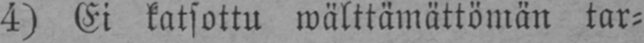4) Ei katsottu wälttämättömän tar-
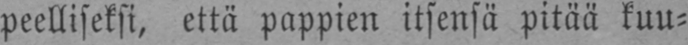peelliseksi, että pappien itsensä pitää kuu-
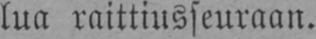lua raittiusseuraan.
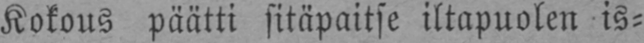Kokous päätti sitäpaitse iltapuolen is-
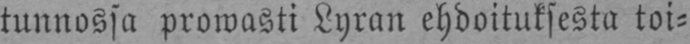tunnossa prowasti Lyran ehdotuksesta toi-
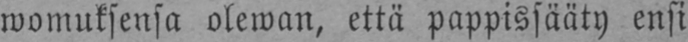womuksensa olewan, että pappissääty ensi
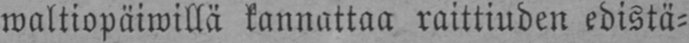waltiopäiwillä kannattaa raittiuden edistä-
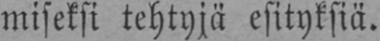miseksi tehtyjä esityksiä.
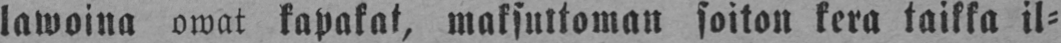lawoina owat kapakat, maksuttoman soiton kera taikka il-
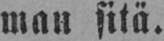man sitä.
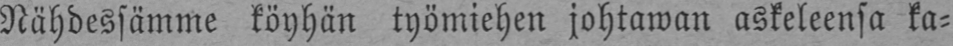Nähdessämme köyhän työmiehen johtawan askeleensa ka-
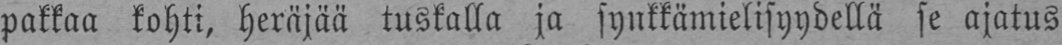pakkaa kohti, heräjää tuskalla ja synkkämielisyydellä se ajatus
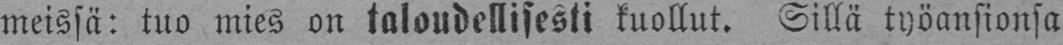meissä: tuo mies on taloudellisesti kuollut. Sillä työansionsa
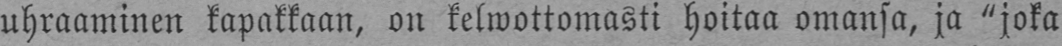uhraaminen kapakkaan, on kelwottomasti hoitaa omansa, ja "joka
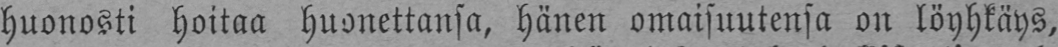huonosti hoitaa huonettansa, hänen omaisuutensa on löyhkäys,
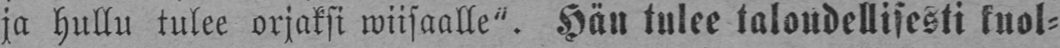ja hullu tulee orjaksi wiisaalle". Hän tulee taloudellisesti kuol-
